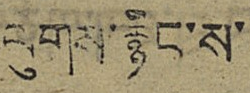ལུགས་རྙིང་ས་
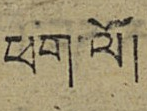ཕག་ལོ།
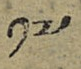༡༧
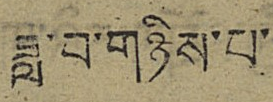ཟླ་བ་གཉིས་པ་
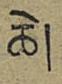ཆེ།
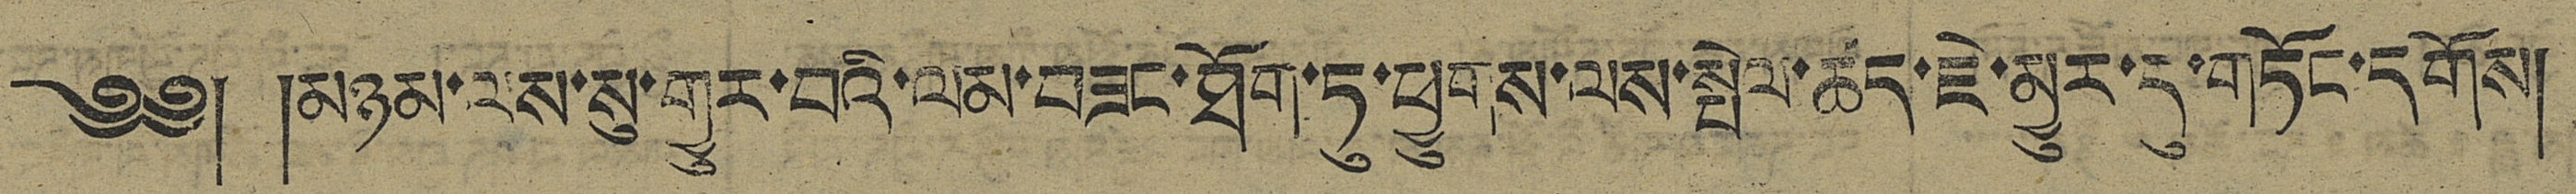༄༅། །མཉམ་ལས་སུ་གྱུར་བའི་ལམ་བཟང་ཐོག་ཏུ་ཕྱུགས་ལས་སྤེལ་ཚད་ཇེ་མྱུར་དུ་གཏོང་དགོས།
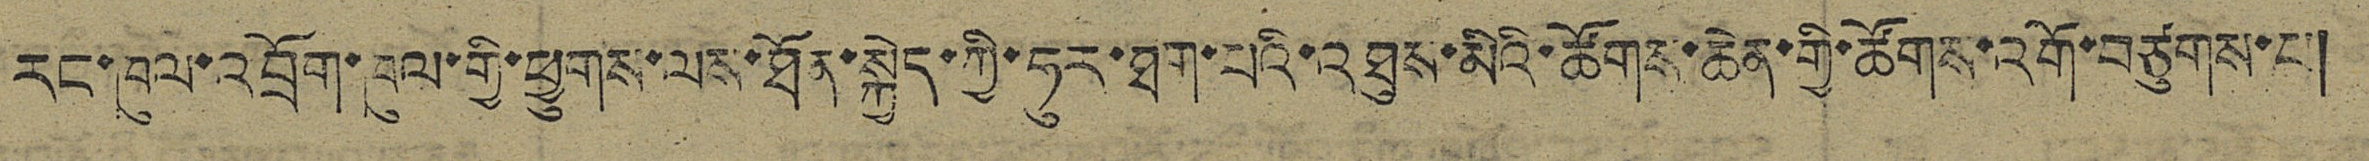རང་ཁུལ་འབྲོག་ཁུལ་གྱི་ཕྱུགས་ལས་ཐོན་སྐྱེད་ཀྱི་ཧུར་ཐག་པའི་འཐུས་མིའི་ཚོགས་ཆེན་གྱི་ཚོགས་འགོ་བཙུགས་པ།
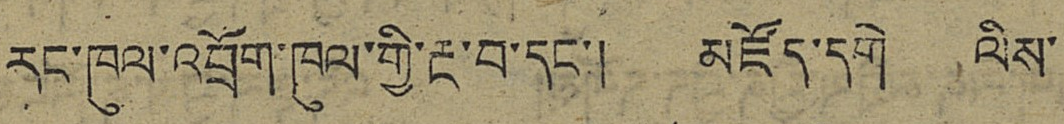རང་ཁུལ་འབྲོག་ཁུལ་གྱི་རྔ་བ་དང་། མཛོད་དགེ ལིས་
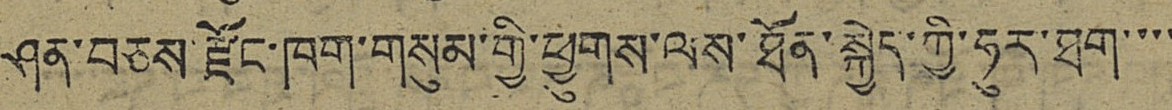ཤན་བཅས་རྫོང་ཁག་གསུམ་གྱི་ཕྱུགས་ལས་ཐོན་སྐྱེད་ཀྱི་ཧུར་ཐག་་་་
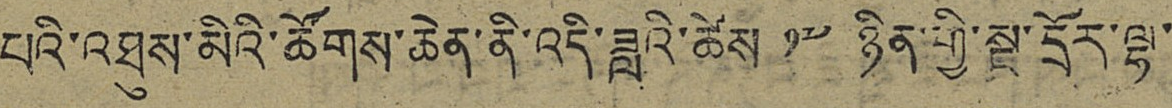པའི་འཐུས་མིའི་ཚོགས་ཆེན་ནི་འདི་ཟླའི་ཚེས ༡༧ ཉིན་གྱི་སྔ་དྲོར་ལྷ་
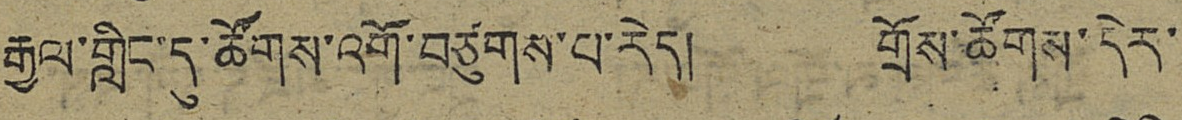རྒྱལ་གླིང་དུ་ཚོགས་འགོ་བཙུགས་པ་རེད། གྲོས་ཚོགས་དེར་
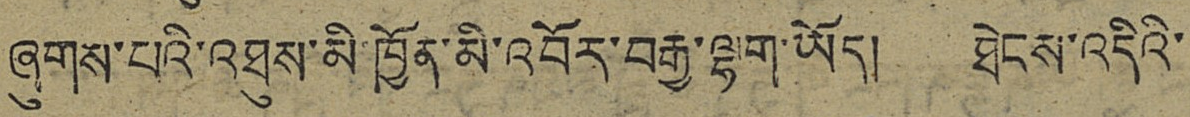ཞུགས་པའི་འཐུས་མི ཁྱོན་མི་འབོར་བརྒྱ་ལྷག་ཡོད། ཐེངས་འདིའི་
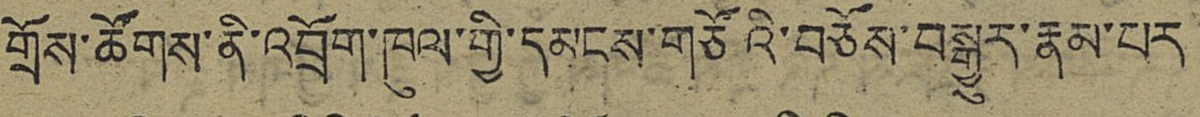གྲོས་ཚོགས་ནི་འབྲོག་ཁུལ་གྱི་དམངས་གཙོའི་བཅོས་བསྒྱུར་རྣམ་པར
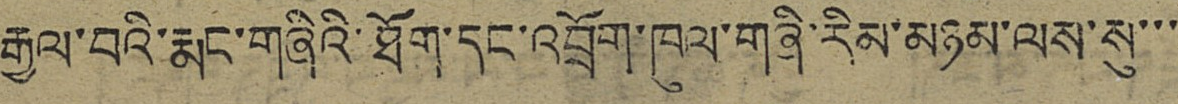རྒྱལ་བའི་རྨང་གཞིའི་ཐོག་དང་འབྲོག་ཁུལ་གཞི་རིམ་མཉམ་ལས་སུ་་་
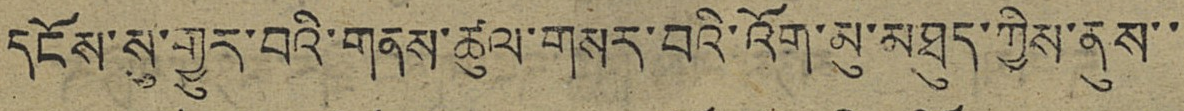དངོས་སུ་གྱུར་བའི་གནས་ཚུལ་གསར་བའི་འོག་མུ་མཐུད་ཀྱིས་ནུས་་
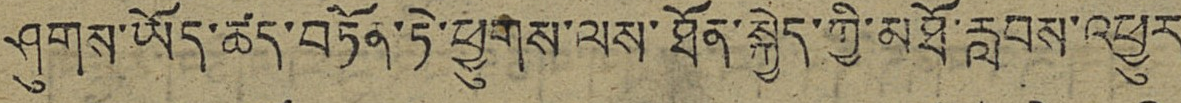ཤུགས་ཡོད་ཚད་བཏོན་ཏེ་ཕྱུགས་ལས་ཐོན་སྐྱེད་གྱི་མཐོ་རླབས་འཕྱུར
